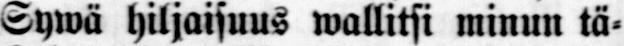Sywä hiljaisuus wallitsi minun tä-
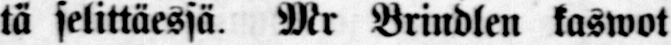tä selittäessä. Mr Brindlen kaswot
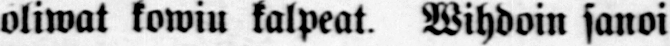oliwat kowiu kalpeat Wihdoin sanoi
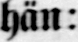hän:
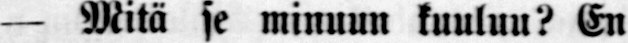— Mitä se minuun kuuluu? En
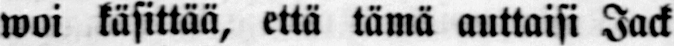woi käsittää, että tämä auttaisi Jack
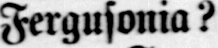Fergusonia?
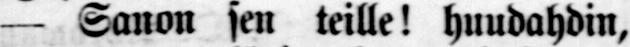— Sanon sen teille! huudahdin,
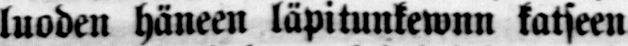luoden häneen läpitunkewan katseen
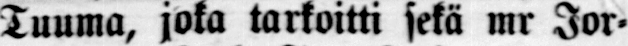Tuuma, joka tarkoitti sekä mr Jor-
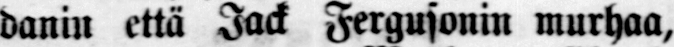danin että Jack Fergusonin murhaa,
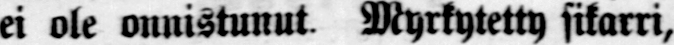ei ole onnistunut Myrkytetty sikarri,
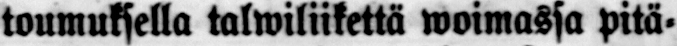toumuksella talwiliikettä woimassa pitä-
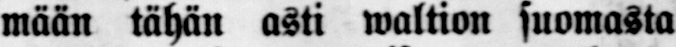mään tähän asti waltion suomasta
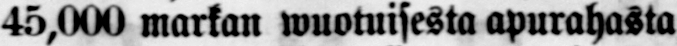45,000 markan wuotuisesta apurahasta
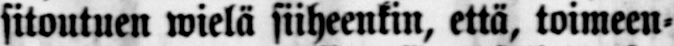sitoutuen wielä siiheenkin, että, toimeen-
